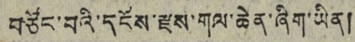བཙོང་བའི་དངོས་རྫས་གལ་ཆེན་ཞིག་ཡིན།
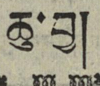ཆུ་བྱ།
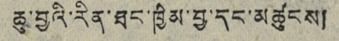ཆུ་བྱའི་རིན་ཐང་ཁྱིམ་བྱ་དང་མཚུངས།
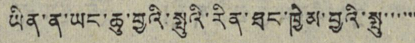ཡིན་ན་ཡང་ཆུ་བྱའི་སྤུའི་རིན་ཐང་ཁྱིམ་བྱའི་སྤུ་་་་་་
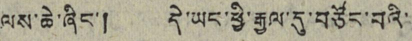ལས་ཆེ་ཞིང་། དེ་ཡང་ཕྱི་རྒྱལ་དུ་བཙོང་བའི་
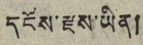དངོས་རྫས་ཡིན།
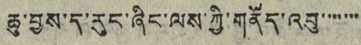ཆུ་བྱས་ད་རུང་ཞིང་ལས་ཀྱི་གནོད་འབུ་་་་་་་
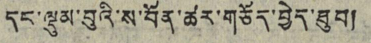དང་ལྡུམ་བུའི་ས་བོན་ཚར་གཅོད་བྱེད་ཐུབ།
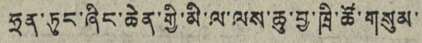ཧྲན་ཏུང་ཞིང་ཆེན་གྱི་མི་ལ་ལས་ཆུ་བྱ་ཁྲི་ཚོ་གསུམ་
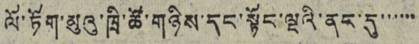ལོ་ཏོག་མུའུ་ཁྲི་ཚོ་གཉིས་དང་སྟོང་ལྔའི་ནར་དུ་་་་་་་
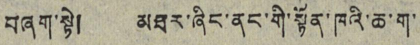བཞག་སྟེ། མཐར་ཞིང་ནང་གི་སྟོན་ཁའི་ཆ་ག་
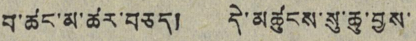བ་ཚང་མ་ཚར་བཅད། དེ་མཚུངས་སུ་ཆུ་བྱས་
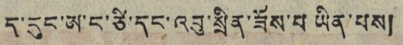ད་དུང་ཨ་ང་ཙི་དང་འབུ་སྲིན་ཟོས་པ ཡིན་པས།
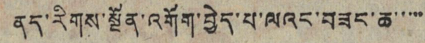ནད་རིགས་སྔོན་འགོག་བྱེད་པ་ལའང་བཟང་ཆ་་་་་
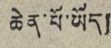ཆེན་པོ་ཡོད།
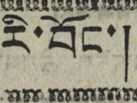རི་བོང་།
